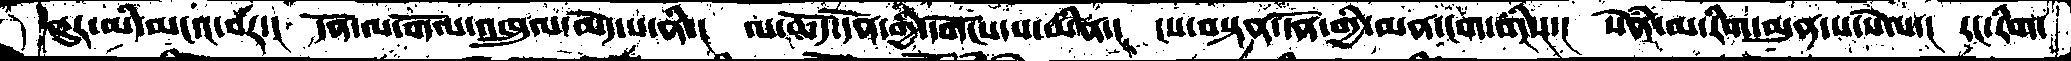ནུར་མི་མངའ་བར་།  དོན་ལ་གོལ་འཁྲུལ་མེད་པ་ནི་།  ལ་ཆོད་དོན་གྱི་དགོངས་པ་ཡིན་།  ངས་བསྟན་དོན་གྱི་མན་ངག་གིས་།  སེནཾ་མ་རིག་མུན་པ་སེལ་།  རང་རིག་
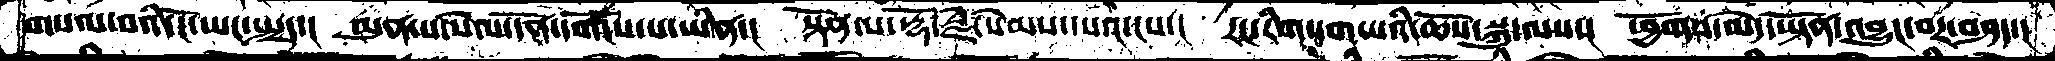གསལ་བའི་ངོ་ཡང་སྤྲད་།  མུན་པ་སེལ་དོན་དགོངས་པ་ཡིན་།  སྟོན་པ་རྡོ་རྗེ་སེམས་དཔའ་ངས་།  རང་རིག་དག་པའི་ཆོས་སྐུ་ལས་།  ཕྱོགས་མེད་ཡྟོན་འབྱུང་བར་བཤད་།
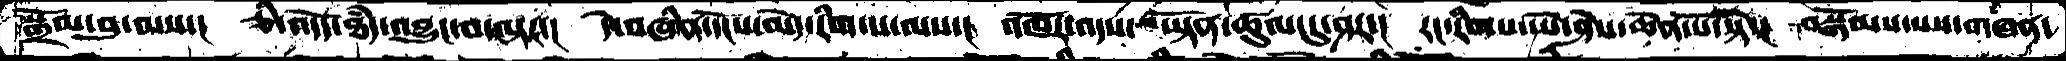སྒྲོམ་བུ་ལས་།  ཅི་འདོད་ཐཾད་འབྱུང་བ་ལྟར་།  དེ་བཞིན་དངོས་མེད་རིག་པ་ལས་།  འཁོར་འདས་ཡྟོན་ཚུལ་དུ་ཤར་།  རང་རིགས་ཡེ་ཤེས་ཆེན་པོ་སྟེ་།  བསྒོམས་པས་གཞན་
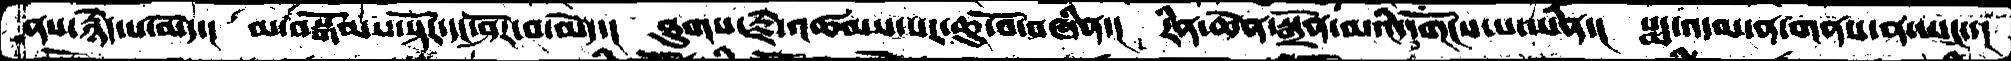ནས་རྙེད་པ་མེད་།  མ་བསྒོམས་སྟོང་དང་ཤོར་བ་མེད་།  ཐུགས་རྗེ་འཚམས་པར་ཆུ་བོ་བཞིན་།  རིན་ཆེན་སྒྲོན་མའི་དགོངས་པ་ཡིན་།  པདྨ་འདམ་ན་གནས་ན་ཡང་་།
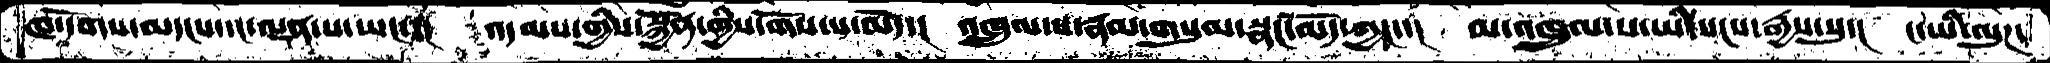ཁ་དོགས་མདངས་དང་ལྡན་པ་ཡང་་།  འདམས་གྱིས་སྐྱོན་གྱིས་གོས་པ་མེད་།  འཁྲུལ་པ་རྣམ་གསུམ་སྣང་མོད་ཀྱང་་།  མ་འཁྲུལ་པ་ཡི་སངས་རྒྱས་སུ་།  ང་ཡི་ལུཌ་
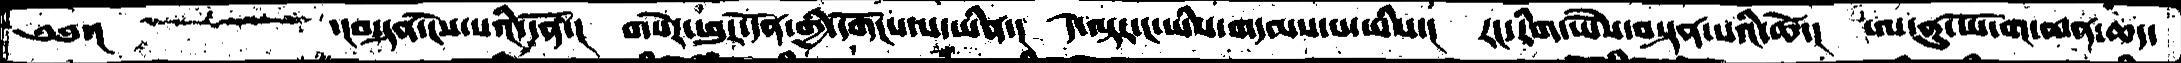༄༅་།      ་།བསྟན་ངེས་པའི་དོན་།  གསེར་ཕུར་དོན་གྱི་དགོངས་པ་ཡིན་།  དེ་ལྟར་ང་ཡིས་གདམས་པ་ཡིས་།  རང་རིག་ཡཻས་བསྟན་པའི་ཚེ་།  ཨ་ནུ་ཡོ་ག་མན་ཆད་
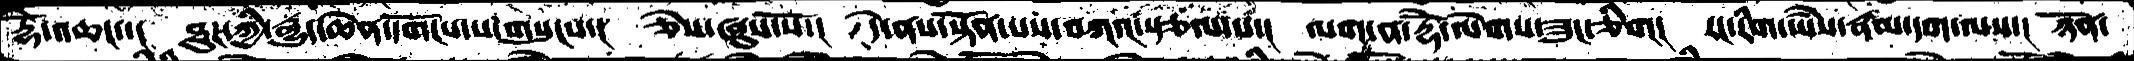རྡོེ་འཆང་་།  ཐུཌ་ཀྱི་རྒྱུད་ཆེན་དགོངས་པ་གསུངས་།  ཅེས་ཞུས་སོ་།  དེ་ནས་སྟོན་པས་བཀའ་སྩལ་པ་།  ལག་ན་རྡོེ་ལེགས་ཟུང་ཅིག།  རང་རིག་ཡཻས་རྣམ་དག་ལས་།  ཉོན་
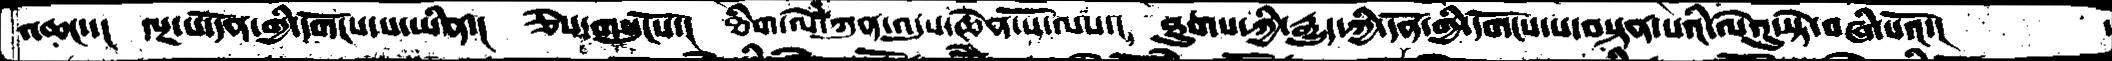འཆང་་།  ལྔ་པ་དོན་གྱི་དགོངས་པ་ཡིན་།  ཅེས་གསུངསོ་།  ཐིག་ལེ་ཀུན་འདུས་ཆེན་པོ་ལས་།  ཐུགས་ཀྱི་རྒྱུད་ཀྱི་དོན་དགོངས་པ་བསྟན་པའི་ལེའུ་སྟེ་བཞི་པའོ་།
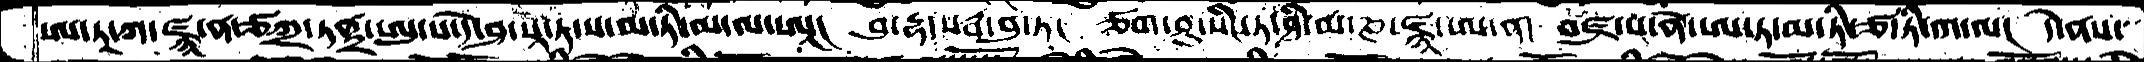ཨ་ཏཱཀ་ཛྙ་ན་ཙཀྲ་ཏནྟྲ་ཨུ་པ་དེ་ཤ་ཨུ་པཱ་ཏ་ས་མ་ཏི་མ་ལ་ཨཱ།  བུ་དྷ་སརྦ་བུ་ཏ། ཙག་ཤུ་སིང་ཏ་ཤི་མ་ཎ་ཛྙཱ་ཨ་ན། བཛྲ་པ་ནེ་ཨ་ཏ་མ་ཏི་ཙ་ཏི་ཀ་ལ། དེ་ནས་
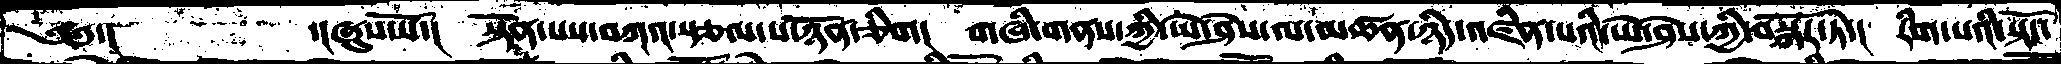༄༅་།       ་།ཞུས་སོ་།  སྟོན་པས་བཀའ་སྩལ་པ་ཉོན་ཅིག།  གཞི་གནས་ཀྱི་ཡེ་ཤེས་ལ་མཚན་ཉིད་འཛིན་པའི་ཡེ་ཤེས་ཀྱི་བསྐོར་ཏེ་།  རིག་པའི་སྟོང་
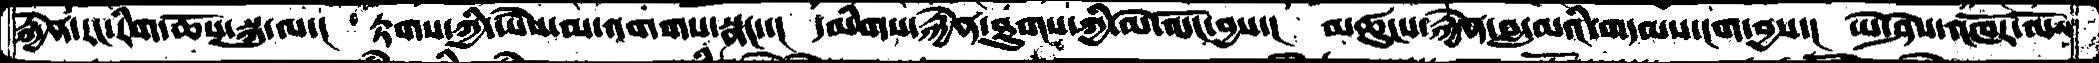རྐྱེན་རང་རིག་ཆོས་སྐུ་ལ་།  རྟགས་ཀྱི་ཡཻས་མ་འགགས་སྣང་་།  དམིགས་རྐྱེན་ཐུགས་ཀྱི་མེ་ལོང་བྱས་།   མཚུངས་རྐྱེན་བླ་མའི་གདམས་ངག་བྱས་།  ཡེ་ཤེས་འཁོར་ལོ་
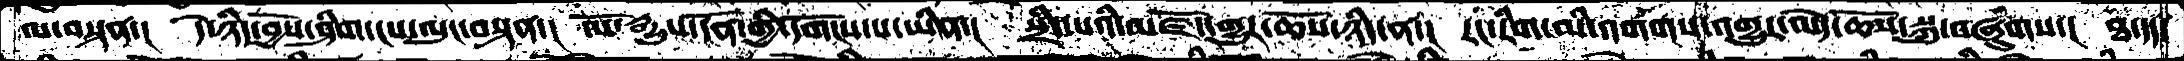ལ་བསྟན་།  དེ་ཉིད་བྱོས་ཤིག་ངས་ལུང་བསྟན་།  ལོ་རྒྱུས་དོན་གྱི་དགོངས་པ་ཡིན་།  སྲིད་པའི་མཛོད་གྱུར་ཆོས་ཉིད་ན་།  རང་རིག་མི་འགགས་འགྱུར་མེད་ཆོས་སྐུ་བཞུགས་།  ཐ་དད་
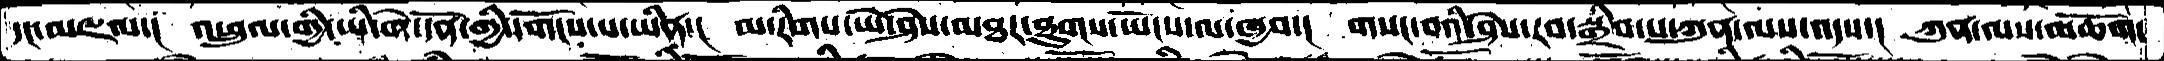དང་མཇལ་།  འཕྲུལ་གྱི་ཡི་གེ་དོན་གྱི་དགོངས་པ་ཡིན་།  མ་རིགས་ཡེ་ཤེས་མཐར་ཐུགས་ཡོངས་ལ་ཁྱབ་།  གསང་བའི་ཤེས་རབ་སྒྲིབ་པ་ཀུན་ལས་འདས་།  ཀུན་ལས་མཆོག་
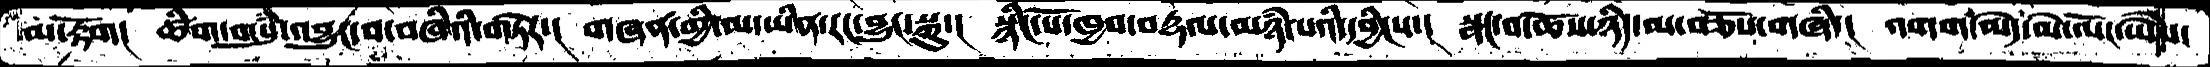མ་རྟོག།  ཚིག་གསུཾ་འབྱུང་བ་བཞིའི་གཏེར་།  གཞན་གྱི་མ་ཡིན་རང་བྱུང་སྐུ་།  སྙིང་པོ་ཁྱབ་བརྡལ་མཉཾ་པའི་དབྱིངས་།  སྣང་བ་ཆོས་ཉིད་མ་བཅོས་གཞི་།  འགག་མེད་མེ་ལོང་ཡཻས་
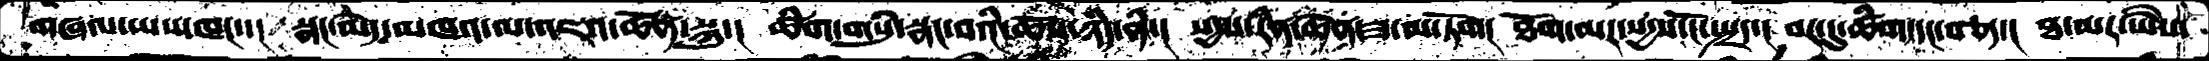གཞལ་ཡས་ཁང་་།  སྣང་མེད་མཁའ་ལ་འཇའ་ཚོན་སྐུ་།  ཚིག་གསུཾ་སྣང་བའི་ཆོས་ཉིད་ནི་།  སདྱས་རིན་ཆེན་ཟ་མ་ཏོག།  ཐོག་མར་སདྱས་ངོ་སྤྲད་། བར་དུ་ཚིག་དང་བཅད་། ཐ་མར་ཡཻས་
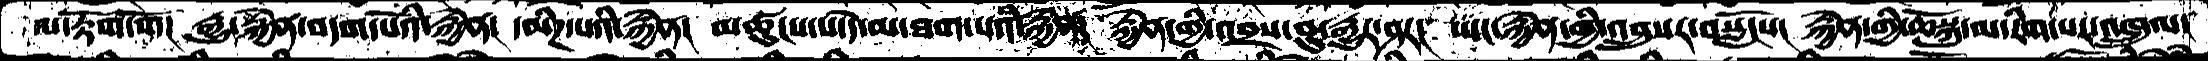ལ་རྟོག་གོ།  རྒྱུ་རྐྱེན་བདག་པོའི་རྐྱེན།  དམིཌ་པའི་རྐྱེན།  མཚུངས་པ་དེ་མ་ཐག་པའི་རྐྱེན།  རྐྱེན་གྱི་འབྲས་བུ་རྒྱུར་ཤར།  ཡང་རྐྱེན་གྱི་འབྲུསར་བསློངས།  རྐྱེན་གྱི་ཆོསྐུ་མ་རིག་པར་འཁྲུལ་
